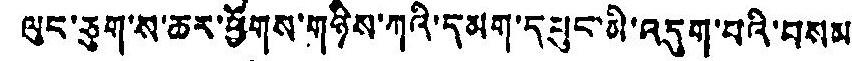ལུང་ཅུག་ས་ཆར་ཕྱོགས་གཉིས་ཀའི་དམག་དཔུང་མི་འདུག་པའི་བསམ་
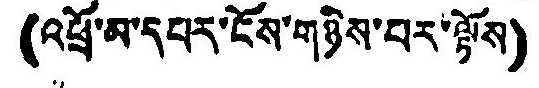(འཕྲོ་མ་དཔར་ངོས་གཉིས་པར་ལྟོས)
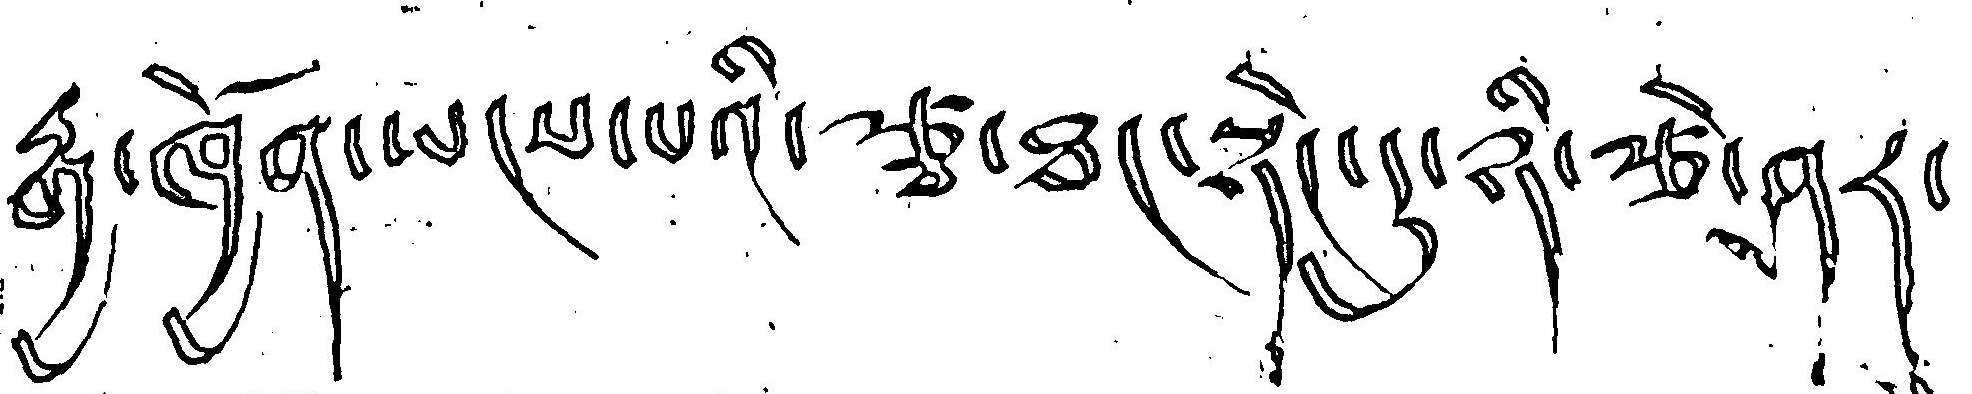རྒྱ་ཁྱོན་ཡངས་པའི་རྩྭ་ཐང་སྟེང་དུ་ཉི་རྩེ་ཤར་
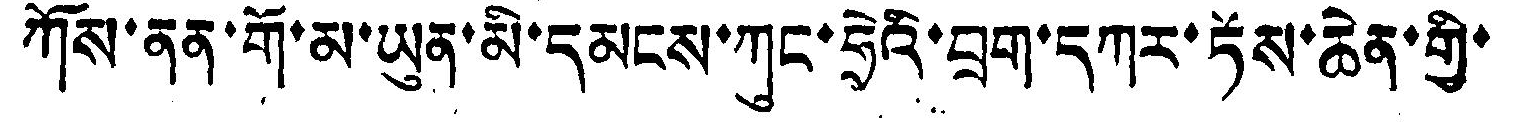ཀོས་ནན་གོ་མ་ཡུན་མི་དམངས་ཀུང་ཧྲེའི་བྲག་དཀར་ཏོས་ཆེན་གྱི་
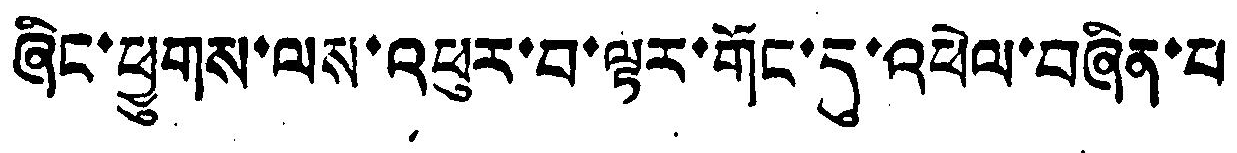ཞིང་ཕྱུགས་ལས་འཕུར་བ་ལྟར་གོང་དུ་འཕེལ་བཞིན་པ
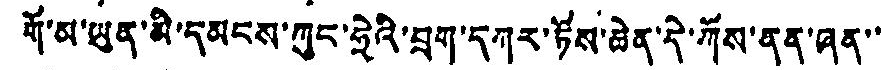གོ་མ་ཡུན་མི་དམངས་ཀུང་ཧྲེའི་བྲག་དཀར་ཏོས་ཆེན་དེ་ཀོས་ནན་ཞན་་་
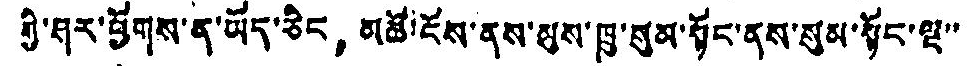ཀྱི་ཤར་ཕྱོགས་ན་ཡོད་ཅིང， མཚོ་ངོས་ནས་མུས་ཁྲུ་སུམ་སོང་ནས་སུམ་སྟོང་ལྔ་་་
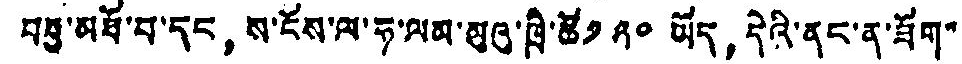བཅུ་མཐོ་བ་དང， ས་ངོས་ལ་ཧ་ལམ་མུའུ་ཁྲི་ཚོ༡༢༠ ཡོད， དེའི་ནང་ན་ཟོག་
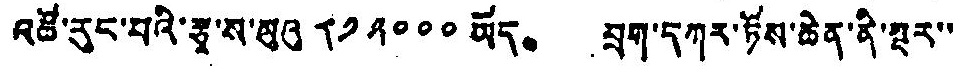འཚོ་རུང་བའི་རྩྭ་ས་མུའུ ༨༡༢༠༠༠ ཡོད། བྲག་དཀར་ཏོས་ཆེན་ནི་སྔར་་
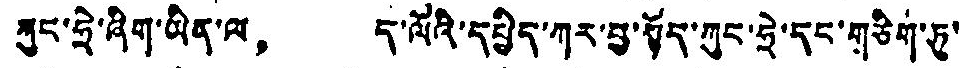ཀུང་ཧྲེ་ཞིག་ཡིན་ལ， ད་ལོའི་དཔྱིད་ཀར་བྱ་སྟོད་ཀུང་ཧྲེ་དང་གཅིག་ཏུ་
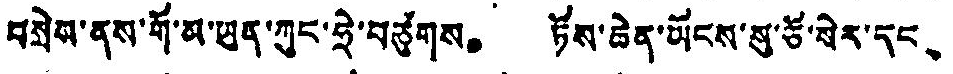བསྲེས་ནས་གོ་མ་ཡུན་ཀུང་ཧྲེ་བཙུགས。 ཏོས་ཆེན་ཡོངས་སུ་ཙོ་སེར་དང、
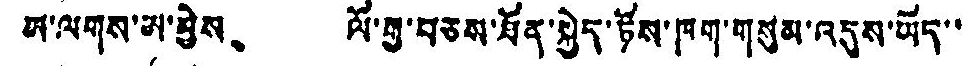མ་ལགས་མ་བྱེས、 ལོ་གྱུ་བཅས་ཐོན་སྐྱེད་ཏོས་ཁག་གསུམ་འདུས་ཡོད་་
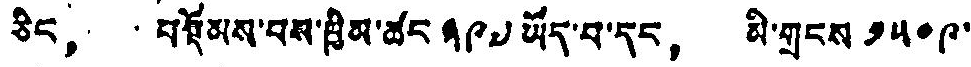ཅིང， བསྡོམས་པས་ཁྱིམ་ཚང ༣༩༧ ཡོད་པ་དང， མི་གྲངས ༡༥༠༩་
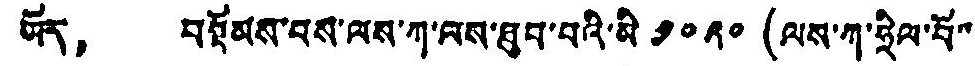ཡོད， བསྡོམས་པས་ལས་ཀ་ལས་ཐུབ་པའི་མི ༡༠༢༠ (ལས་ཀ་ཧྲིལ་པོ་་་
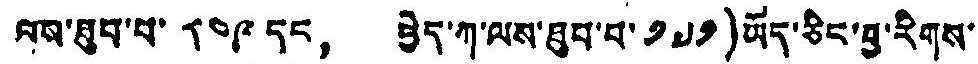ལས་ཐུབ་པ་ ༨༠༩ དང། ཕྱེད་ཀ་ལས་ཐུབ་པ་ ༡༧༡) ཡོད་ཅིང་བྱ་རིགས་
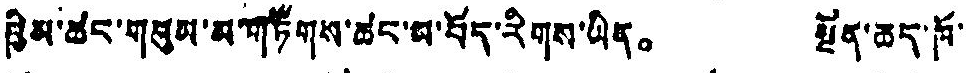ཁྱིམ་ཚང་གསུམ་མ་གཏོགས་ཚང་མ་བོད་རིགས་ཡིན。 སྔོན་ཆད་ཁོ་
